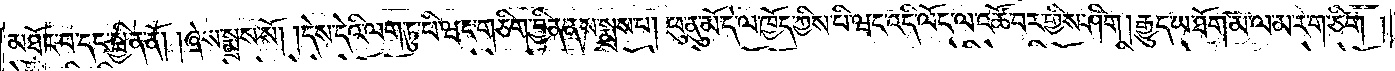མཐོང་བ་དང་སྦྱིན་ནོ། །ཞེས་སྨྲས་སོ། །དེས་དེའི་ལག་ཏུ་པི་ཝང་གཅིག་བྱིན་ནས་སྨྲས་པ། ཕུ་ནུ་མོ་དེ་ལ་ཁྱོད་ཀྱིས་པི་ཝང་འདི་ལོང་ལ་འཚོ་བར་གྱིས་ཤིག །རྒྱུད་ཡ་ཐོག་མ་ལ་མ་རེ་ག་ཅིག །
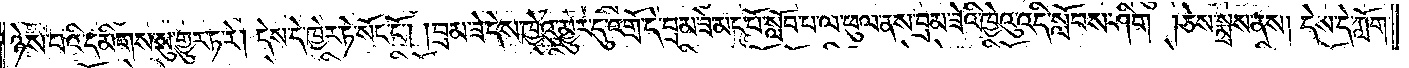ཉེས་པའི་དམིགས་སུ་གྱུར་ཏ་རེ། དེས་དེ་ཁྱེར་ཏེ་སོང་ངོ༌། །བྲམ་ཟེ་དེས་ཁྱེའུ་མྱུར་དུ་འགྲོ་དེ་བྲམ་ཟེ་མང་པོ་སློབ་པ་ལ་ཕུལ་ནས་བྲམ་ཟེའི་ཁྱེའུ་འདི་སློབས་ཤིག །ཅེས་སྨྲས་ནས། དེས་དེ་ཀློག་
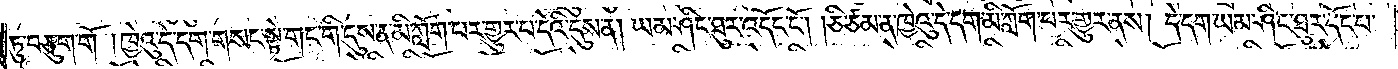ཏུ་བཅུག་གོ །ཁྱེའུ་དེ་དག་གསང་སྟེ་གང་གི་དུས་ན་མི་ཀློག་པར་གྱུར་པ་དེའི་དུས་ན། ཡམ་ཤིང་ཐུར་འདོང་ངོ༌། །ཅི་ཙམ་ན་ཁྱེའུ་དེ་དག་མི་ཀློག་པར་གྱུར་ནས། དེ་དག་ཡམ་ཤིང་ཐུར་དོང་པ་
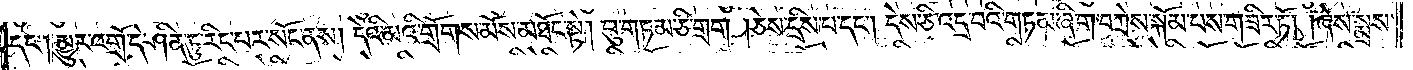དང༌། མྱུར་འགྲོ་དེ་ཤིན་ཏུ་རིང་པར་སོང་ནས། དེའི་མའི་གྲོགས་མོས་མཐོང་སྟེ། བུ་གཏམ་ཅི་གྲག །ཅེས་དྲིས་པ་དང༌། དེས་ཅི་འདྲ་བའི་གཏམ་ཞིག་བཀྲེས་སྐོམ་པས་གཟིར་ཏོ། །ཞེས་སྨྲས་
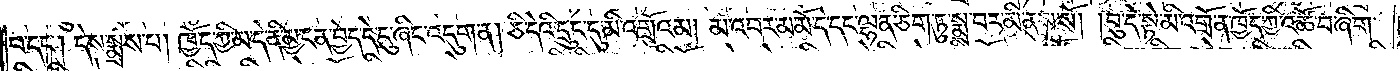པ་དང༌། དེས་སྨྲས་པ། ཁྱོད་ཀྱི་མ་དེ་ནི་མྱ་ངན་བྱེད་དེ་ངུ་ཞིང་འདུག་ན། ཅི་དེའི་དྲུང་དུ་མི་འགྲོའམ། མ་འབར་མ་མོ་དེ་དང་ལྷན་ཅིག་ཏུ་སྨྲ་བར་མི་ནུས་སོ། །བུ་དེ་སྟེ་མི་འགྲོ་ན་ཁྱོད་ཀྱི་འཚོ་བ་ཞིག་
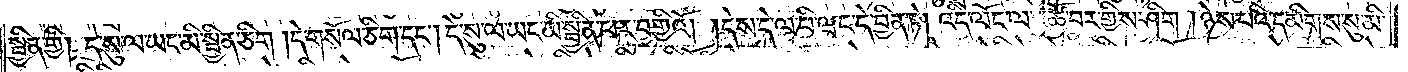སྦྱིན་གྱི། དེ་སུ་ལ་ཡང་མི་སྦྱིན་ཅིག །དེ་གསོལ་ཅིག་དང༌། དེ་སུ་ལ་ཡང་མི་སྦྱིན་པར་བགྱིའོ། །དེས་དེ་ལ་པི་ཝང་དེ་བྱིན་ཏེ། འདི་ལོང་ལ་འཚོ་བར་གྱིས་ཤིག །ཉེས་པའི་དམིགས་སུ་མི་
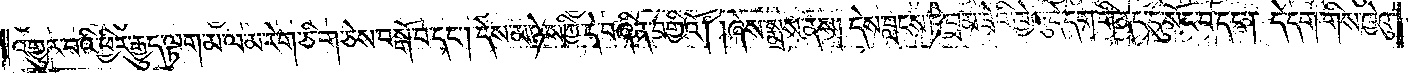འགྱུར་བའི་ཕྱིར་རྒྱུད་ལྟག་མ་ལ་མ་རེ་ག་ཅིག་ཅེས་བསྒོ་བ་དང༌། དེས་མ་ཉེས་ཀྱི་དེ་བཞིན་བགྱིའོ། །ཞེས་སྨྲས་ནས། དེས་བླངས་ཏེ་བྲམ་ཟེའི་ཁྱེའུ་དེ་དག་གི་ནང་དུ་སོང་བ་དང༌། དེ་དག་གིས་ཁྱེའུ་
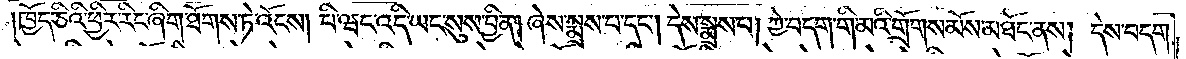ཁྱོད་ཅིའི་ཕྱིར་རིང་ཞིག་ཐོགས་ཏེ་འོངས། པི་ཝང་འདི་ཡང་སུས་བྱིན། ཞེས་སྨྲས་པ་དང༌། དེས་སྨྲས་པ། ཀྱེ་བདག་གི་མའི་གྲོགས་མོས་མཐོང་ནས། དེས་བདག་
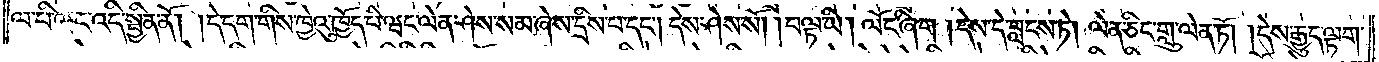ལ་པི་ཝང་འདི་སྦྱིན་ནོ། །དེ་དག་གིས་ཁྱེའུ་ཁྱོད་པི་ཝང་ལེན་ཤེས་སམ་ཞེས་དྲིས་པ་དང༌། དེས་ཤེས་སོ། །བལྟ་ཡི། ལོང་ཞིག །དེས་དེ་བླངས་ཏེ། ལེན་ཅིང་གླུ་ལེན་ཏོ། །དེས་རྒྱུད་ལྟག་
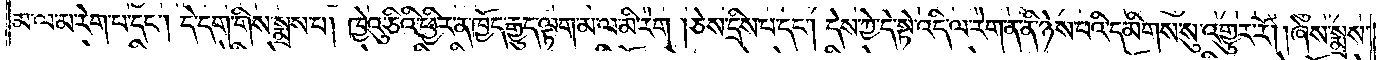མ་ལ་མ་རེག་པ་དང༌། དེ་དག་གིས་སྨྲས་པ། ཁྱེའུ་ཅིའི་ཕྱིར་ན་ཁྱོད་རྒྱུད་ལྟག་མ་ལ་མི་རེག །ཅེས་དྲིས་པ་དང༌། དེས་ཀྱེ་དེ་སྟེ་འདི་ལ་རེག་ན་ནི་ཉེས་པའི་དམིགས་སུ་འགྱུར་རོ། །ཞེས་སྨྲས་
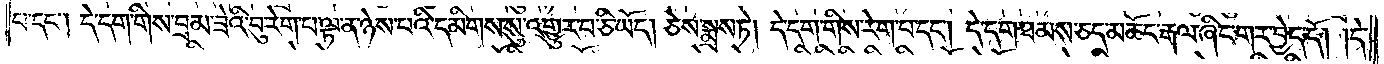པ་དང༌། དེ་དག་གིས་བྲམ་ཟེའི་བུ་རེག་པ་ལྟ་ན་ཉེས་པའི་དམིགས་སུ་འགྱུར་བ་ཅི་ཡོད། ཅེས་སྨྲས་ཏེ། དེ་དག་གིས་རེག་པ་དང༌། དེ་དག་ཐམས་ཅད་མཆོང་རྒལ་ཞིང་གར་བྱེད་དོ། །དེ་
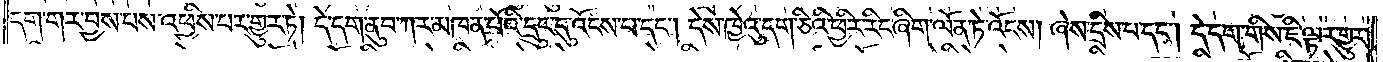དག་གར་བྱས་པས་འཕྱིས་པར་གྱུར་ཏེ། དེ་དག་ནུབ་ཀར་མཁན་པོའི་དྲུང་དུ་འོངས་པ་དང༌། དེས་ཁྱེའུ་དག་ཅིའི་ཕྱིར་རིང་ཞིག་ལོན་ཏེ་འོངས། ཞེས་དྲིས་པ་དང༌། དེ་དག་གིས་ཇི་ལྟར་གྱུར་
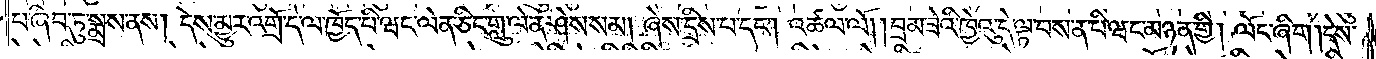པ་ཞིབ་ཏུ་སྨྲས་ནས། དེས་མྱུར་འགྲོ་དེ་ལ་ཁྱོད་པི་ཝང་ལེན་ཅིང་གླུ་ལེན་ཤེས་སམ། ཞེས་དྲིས་པ་དང༌། འཚལ་ལོ། བྲམ་ཟེའི་ཁྱེའུ་དེ་ལྟ་བས་ན་པི་ཝང་མཉན་གྱི། ལོང་ཞིག །དེས་
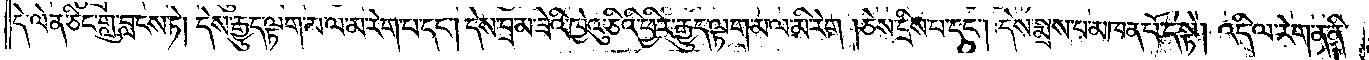དེ་ལེན་ཅིང་གླུ་བླངས་ཏེ། དེས་རྒྱུད་ལྟག་མ་ལ་མ་རེག་པ་དང༌། དེས་བྲམ་ཟེའི་ཁྱེའུ་ཅིའི་ཕྱིར་རྒྱུད་ལྟག་མ་ལ་མི་རེག །ཅེས་དྲིས་པ་དང༌། དེས་སྨྲས་པ་མཁན་པོ་དེ་སྟེ། འདི་ལ་རེག་ན་ནི་
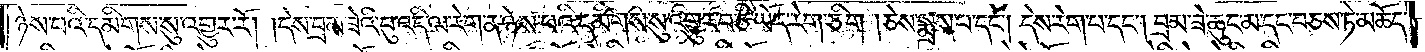ཉེས་པའི་དམིགས་སུ་འགྱུར་རོ། །དེས་བྲམ་ཟེའི་བུ་འདི་ལ་རེག་ན་ཉེས་པའི་དམིགས་སུ་འགྱུར་བ་ཅི་ཡོད་རེག་ཅིག །ཅེས་སྨྲས་པ་དང༌། དེས་རེག་པ་དང༌། བྲམ་ཟེ་ཆུང་མ་དང་བཅས་ཏེ་མཆོད་
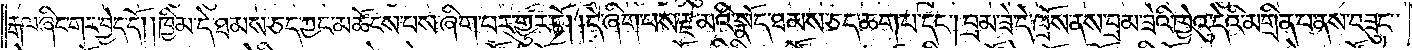རྒལ་ཞིང་གར་བྱེད་དོ། །ཁྱིམ་དེ་ཐམས་ཅད་ཀྱང་མཆོངས་པས་ཞིག་པར་གྱུར་ཏོ། །དེ་ཞིག་པས་རྫ་མའི་སྣོད་ཐམས་ཅད་ཆག་པ་དང༌། བྲམ་ཟེ་དེ་ཁྲོས་ནས་བྲམ་ཟེའི་ཁྱེའུ་དེའི་མགྲིན་པ་ནས་བཟུང་
